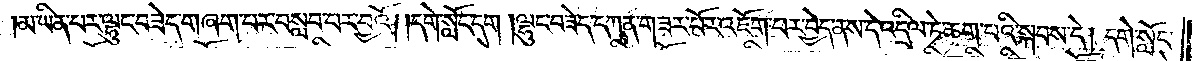མ་ཡིན་པར་ལྷུང་བཟེད་གཞག་པར་བསླབ་པར་བྱའོ། །དགེ་སློང་དག །ལྷུང་བཟེད་དཀན་གཟར་པོར་འཇོག་པར་བྱེད་ནས་དེ་འདྲིལ་ཏེ་ཆག་པའི་སྐབས་དེ། དགེ་སློང་
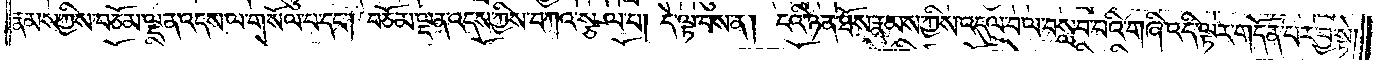རྣམས་ཀྱིས་བཅོམ་ལྡན་འདས་ལ་གསོལ་པ་དང༌། བཅོམ་ལྡན་འདས་ཀྱིས་བཀའ་སྩལ་པ། དེ་ལྟ་བས་ན། ངའི་ཉན་ཐོས་རྣམས་ཀྱིས་འདུལ་བ་ལ་བསླབ་པའི་གཞི་འདི་ལྟར་གདོན་པར་བྱ་སྟེ།
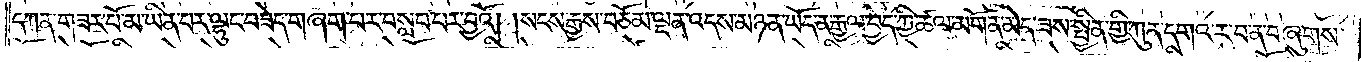དཀན་གཟར་པོ་མ་ཡིན་པར་ལྷུང་བཟེད་གཞག་པར་བསླབ་པར་བྱའོ། །སངས་རྒྱས་བཅོམ་ལྡན་འདས་མཉན་ཡོད་ན་རྒྱལ་བྱེད་ཀྱི་ཚལ་མགོན་མེད་ཟས་སྦྱིན་གྱི་ཀུན་དགའ་ར་བ་ན་བཞུགས་
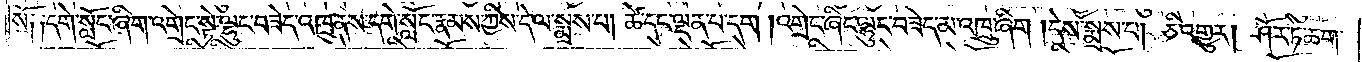སོ༑ ༑དགེ་སློང་ཞིག་འགྲེང་སྟེ་ལྷུང་བཟེད་འཁྲུ་ནས་དགེ་སློང་རྣམས་ཀྱིས་དེ་ལ་སྨྲས་པ། ཚེ་དང་ལྡན་པ་དག །འགྲེང་ཞིང་ལྷུང་བཟེད་མ་འཁྲུ་ཞིག །དེས་སྨྲས་པ། ཅི་འགྱུར། ཤོར་ཏེ་ཆག་
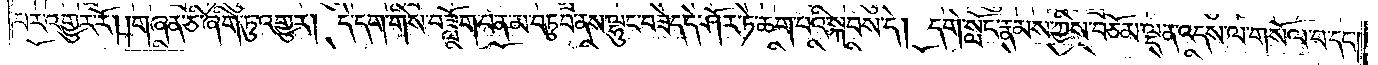པར་འགྱུར་རོ། །གཞན་ཅི་ཞིག་ཏུ་འགྱུར། དེ་དག་གིས་བཟློག་པ་ན་མ་བཏུབ་ནས་ལྷུང་བཟེད་དེ་ཤོར་ཏེ་ཆག་པའི་སྐབས་དེ། དགེ་སློང་རྣམས་ཀྱིས་བཅོམ་ལྡན་འདས་ལ་གསོལ་བ་དང༌།
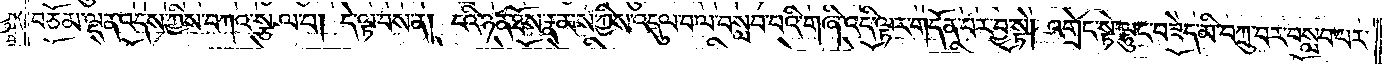བཅོམ་ལྡན་འདས་ཀྱིས་བཀའ་སྩལ་བ། དེ་ལྟ་བས་ན། ངའི་ཉན་ཐོས་རྣམས་ཀྱིས་འདུལ་བ་ལ་བསླབ་པའི་གཞི་འདི་ལྟར་གདོན་པར་བྱ་སྟེ། འགྲེང་སྟེ་ལྷུང་བཟེད་མི་བཀྲུ་བར་བསླབ་པར་
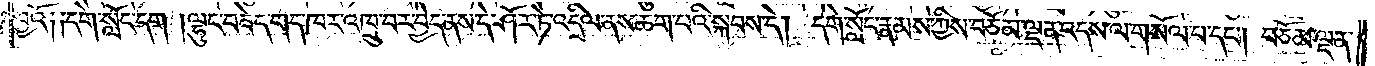བྱའོ༑ ༑དགེ་སློང་དག །ལྷུང་བཟེད་གད་ཁར་འཁྲུ་བར་བྱེད་ནས་དེ་ཤོར་ཏེ་འདྲིལ་ནས་ཆག་པའི་སྐབས་དེ། དགེ་སློང་རྣམས་ཀྱིས་བཅོམ་ལྡན་འདས་ལ་གསོལ་པ་དང༌། བཅོམ་ལྡན་
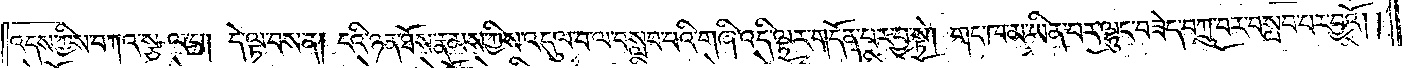འདས་ཀྱིས་བཀའ་སྩལ་པ། དེ་ལྟ་བས་ན། ངའི་ཉན་ཐོས་རྣམས་ཀྱིས་འདུལ་བ་ལ་བསླབ་པའི་གཞི་འདི་ལྟར་གདོན་པར་བྱ་སྟེ། གང་ཁ་མ་ཡིན་པར་ལྷུང་བཟེད་བཀྲུ་བར་བསླབ་པར་བྱའོ། །
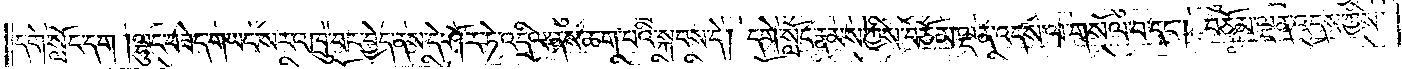དགེ་སློང་དག །ལྷུང་བཟེད་གཡང་སར་འཁྲུ་བར་བྱེད་ནས་དེ་ཤོར་ཏེ་འདྲིལ་ནས་ཆག་པའི་སྐབས་དེ། དགེ་སློང་རྣམས་ཀྱིས་བཅོམ་ལྡན་འདས་ལ་གསོལ་བ་དང༌། བཅོམ་ལྡན་འདས་ཀྱིས་
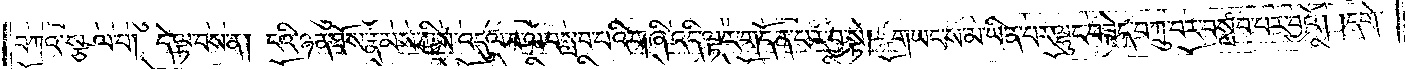བཀའ་སྩལ་པ། དེ་ལྟ་བས་ན། ངའི་ཉན་ཐོས་རྣམས་ཀྱིས་འདུལ་བ་ལ་བསླབ་པའི་གཞི་འདི་ལྟར་གདོན་པར་བྱ་སྟེ། གཡང་ས་མ་ཡིན་པར་ལྷུང་བཟེད་བཀྲུ་བར་བསླབ་པར་བྱའོ། །དགེ་
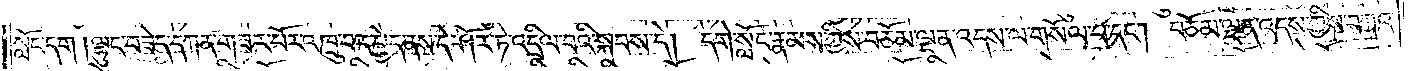སློང་དག །ལྷུང་བཟེད་དཀན་གཟར་པོར་འཁྲུ་བར་བྱེད་ནས་དེ་ཤོར་ཏེ་འདྲིལ་བའི་སྐབས་དེ། དགེ་སློང་རྣམས་ཀྱིས་བཅོམ་ལྡན་འདས་ལ་གསོལ་པ་དང༌། བཅོམ་ལྡན་འདས་ཀྱིས་བཀའ་
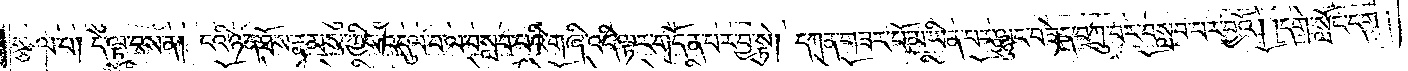སྩལ་པ། དེ་ལྟ་བས་ན། ངའི་ཉན་ཐོས་རྣམས་ཀྱིས་འདུལ་བ་ལ་བསླབ་པའི་གཞི་འདི་ལྟར་གདོན་པར་བྱ་སྟེ། དཀན་གཟར་པོ་མ་ཡིན་པར་ལྷུང་བཟེད་བཀྲུ་བར་བསླབ་པར་བྱའོ། །དགེ་སློང་དག །
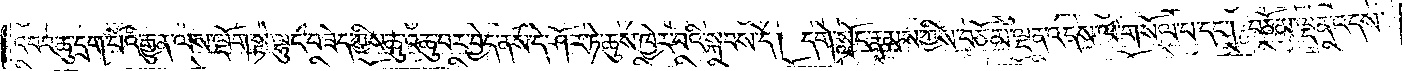འབབ་ཆུ་དྲག་པོའི་རྒྱུན་ལས་ལྡོག་སྟེ་ལྷུང་བཟེད་ཀྱིས་ཆུ་འཆུ་བར་བྱེད་ནས་དེ་ཤོར་ཏེ་ཆུས་ཁྱེར་བའི་སྐབས་དེ། དགེ་སློང་རྣམས་ཀྱིས་བཅོམ་ལྡན་འདས་ལ་གསོལ་པ་དང༌། བཅོམ་ལྡན་འདས་
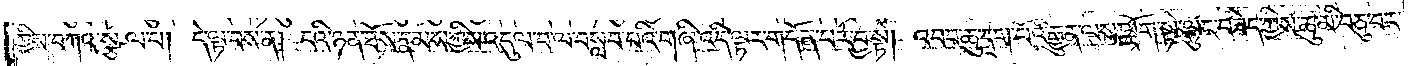ཀྱིས་བཀའ་སྩལ་པ། དེ་ལྟ་བས་ན། ངའི་ཉན་ཐོས་རྣམས་ཀྱིས་འདུལ་བ་ལ་བསླབ་པའི་གཞི་འདི་ལྟར་གདོན་པར་བྱ་སྟེ། འབབ་ཆུ་དྲག་པོའི་རྒྱུན་ལས་ལྡོག་སྟེ་ལྷུང་བཟེད་ཀྱིས་ཆུ་མི་བཅུ་བར་
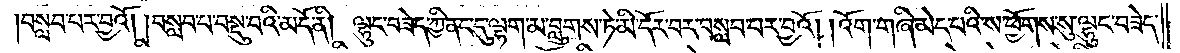བསླབ་པར་བྱའོ། །བསླབ་པ་བསྡུ་བའི་མདོ་ནི། ལྷུང་བཟེད་ཀྱི་ནང་དུ་ལྷག་མ་བླུགས་ཏེ་མི་དོར་བར་བསླབ་པར་བྱའོ། །འོག་གཞི་མེད་པའི་ས་ཕྱོགས་སུ་ལྷུང་བཟེད་
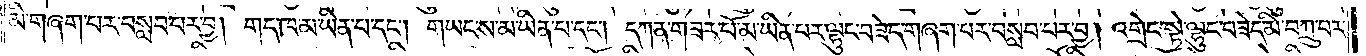མི་གཞག་པར་བསླབ་པར་བྱ། གད་ཁ་མ་ཡིན་པ་དང༌། གཡང་ས་མ་ཡིན་པ་དང༌། དཀན་གཟར་པོ་མ་ཡིན་པར་ལྷུང་བཟེད་གཞག་པར་བསླབ་པར་བྱ། འགྲེང་སྟེ་ལྷུང་བཟེད་མི་བཀྲུ་བར་
